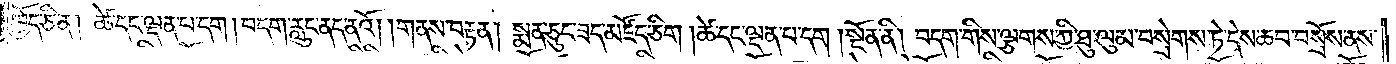ཁྱོད་ཅི་ན། ཚེ་དང་ལྡན་པ་དག །བདག་རླུང་ནད་ནའོ། །གནས་བརྟན། སྨན་ཅུང་ཟད་མཛོད་ཅིག །ཚེ་དང་ལྡན་པ་དག །སྔོན་ནི། བདག་གིས་ལྕགས་ཀྱི་ཐུ་ལུམ་བསྲེགས་ཏེ་དེས་ཆབ་བསྲོས་ནས་
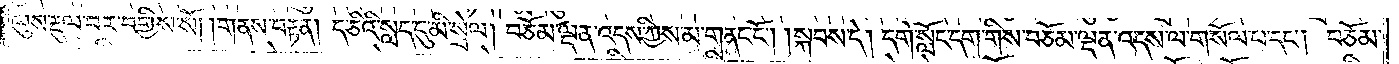ལུས་རྔུལ་བར་བགྱིས་སོ། །གནས་བརྟན། ད་ཅིའི་སླད་དུ་མི་སྲེལ། བཅོམ་ལྡན་འདས་ཀྱིས་མ་གནང་ངོ༌། །སྐབས་དེ། དགེ་སློང་དག་གིས་བཅོམ་ལྡན་འདས་ལ་གསོལ་པ་དང༌། བཅོམ་
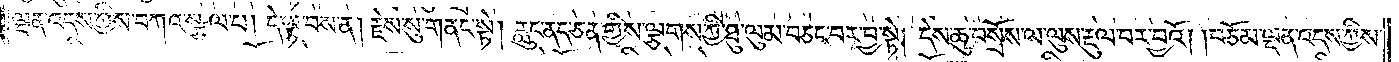ལྡན་འདས་ཀྱིས་བཀའ་སྩལ་པ། དེ་ལྟ་བས་ན། རྗེས་སུ་གནང་སྟེ། རླུང་ནད་ཅན་གྱིས་ལྕགས་ཀྱི་ཐུ་ལུམ་བཅང་བར་བྱ་སྟེ། དེས་ཆུ་བསྲོས་ལ་ལུས་རྡུལ་བར་བྱའོ། །བཅོམ་ལྡན་འདས་ཀྱིས་
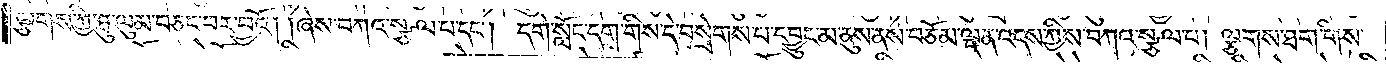ལྕགས་ཀྱི་ཐུ་ལུམ་བཅང་བར་བྱའོ། །ཞེས་བཀའ་སྩལ་པ་དང༌། དགེ་སློང་དག་གིས་དེ་བསྲེགས་པ་དབྱུང་མ་ནུས་ནས་བཅོམ་ལྡན་འདས་ཀྱིས་བཀའ་སྩལ་པ། ལྕགས་ཐག་གིས་
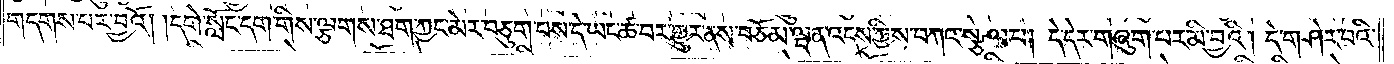གདགས་པར་བྱའོ། །དགེ་སློང་དག་གིས་ལྕགས་ཐག་ཀྱང་མེར་བཅུག་པས་དེ་ཡང་ཚ་བར་གྱུར་ནས་བཅོམ་ལྡན་འདས་ཀྱིས་བཀའ་སྩལ་པ། དེ་དེར་གཞུག་པར་མི་བྱའི། དེ་གཤེར་བའི་
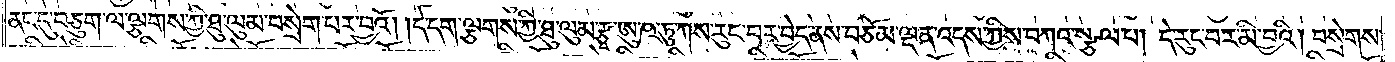ནང་དུ་བཅུག་ལ་ལྕགས་ཀྱི་ཐུ་ལུམ་བསྲེག་པར་བྱའོ། །དེ་དག་ལྕགས་ཀྱི་ཐུ་ལུམ་རྩྭ་ཨུ་ཥ་ཏུ་གས་རུང་བར་བྱེད་ནས་བཅོམ་ལྡན་འདས་ཀྱིས་བཀའ་སྩལ་པ། དེ་རུང་བར་མི་བྱའི། །བསྲེགས་
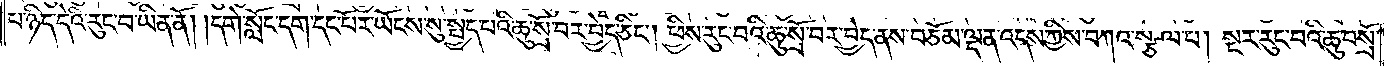པ་ཉིད་དེའི་རུང་བ་ཡིན་ནོ། །དགེ་སློང་དག་དང་པོར་ཡོངས་སུ་སྤྱད་པའི་ཆུ་སྲོ་བར་བྱེད་ཅིང༌། ཕྱིས་རུང་བའི་ཆུ་སྲོ་བར་བྱེད་ནས་བཅོམ་ལྡན་འདས་ཀྱིས་བཀའ་སྩལ་པ། སྔར་རུང་བའི་ཆུ་བསྲོ་
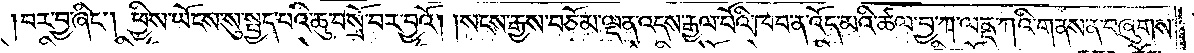བར་བྱ་ཞིང༌། ཕྱིས་ཡོངས་སུ་སྤྱད་པའི་ཆུ་བསྲོ་བར་བྱའོ། །སངས་རྒྱས་བཅོམ་ལྡན་འདས་རྒྱལ་པོའི་ཁབ་ན་འོད་མའི་ཚལ་བྱ་ཀ་ལནྡ་ཀའི་གནས་ན་བཞུགས་
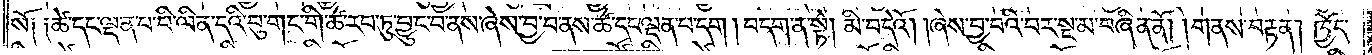སོ། །ཚེ་དང་ལྡན་པ་པི་ལིན་དའི་བུ་གང་གི་ཚེ་རབ་ཏུ་བྱུང་བ་ནས་ཞེས་བྱ་བ་ནས་ཚེ་དང་ལྡན་པ་དག །བདག་ན་སྟེ། མི་བདེའོ། །ཞེས་བྱ་བའི་བར་སྔ་མ་བཞིན་ནོ། །གནས་བརྟན། ཁྱོད་
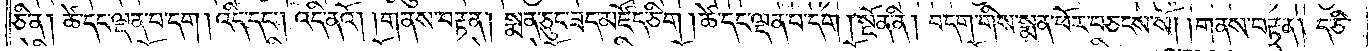ཅི་ན། ཚེ་དང་ལྡན་པ་དག །འདི་དང༌། འདི་ནའོ། །གནས་བརྟན། སྨན་ཅུང་ཟད་མཛོད་ཅིག །ཚེ་དང་ལྡན་པ་དག །སྔོན་ནི། བདག་གིས་སྨན་ཕོར་བཅངས་སོ། །གནས་བརྟན། ད་ཅི་
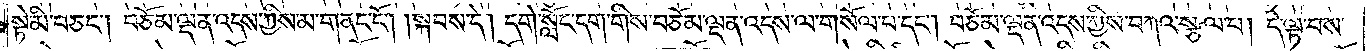སྟེ་མི་བཅང༌། བཅོམ་ལྡན་འདས་ཀྱིས་མ་གནང་ངོ༌། །སྐབས་དེ། དགེ་སློང་དག་གིས་བཅོམ་ལྡན་འདས་ལ་གསོལ་པ་དང༌། བཅོམ་ལྡན་འདས་ཀྱིས་བཀའ་སྩལ་པ། དེ་ལྟ་བས་
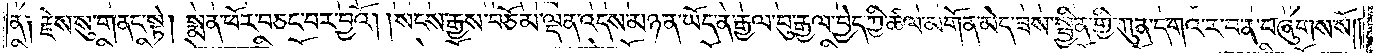ན། རྗེས་སུ་གནང་སྟེ། སྨན་ཕོར་བཅང་བར་བྱའོ། །སངས་རྒྱས་བཅོམ་ལྡན་འདས་མཉན་ཡོད་ན་རྒྱལ་བུ་རྒྱལ་བྱེད་ཀྱི་ཚལ་མགོན་མེད་ཟས་སྦྱིན་གྱི་ཀུན་དགའ་ར་བ་ན་བཞུགས་སོ། །
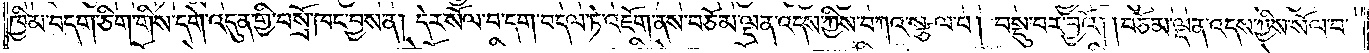ཁྱིམ་བདག་ཅིག་གིས་དགེ་འདུན་གྱི་བསྲོ་ཁང་བྱས་ན། དེར་སོལ་བ་དག་བདལ་ཏེ་འཇོག་ནས་བཅོམ་ལྡན་འདས་ཀྱིས་བཀའ་སྩལ་པ། བསྡུ་བར་བྱའོ། །བཅོམ་ལྡན་འདས་ཀྱིས་སོལ་བ་
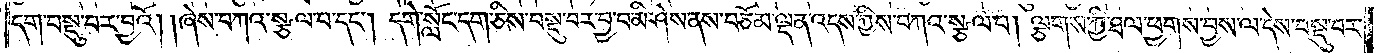དག་བསྡུ་བར་བྱའོ། །ཞེས་བཀའ་སྩལ་པ་དང༌། དགེ་སློང་དག་ཅིས་བསྡུ་བར་བྱ་བ་མི་ཤེས་ནས་བཅོམ་ལྡན་འདས་ཀྱིས་བཀའ་སྩལ་པ། ལྕགས་ཀྱི་ཐལ་ཕྱགས་བྱས་ལ་དེས་བསྡུ་བར་
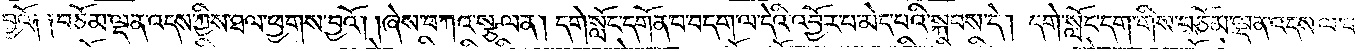བྱའོ། །བཅོམ་ལྡན་འདས་ཀྱིས་ཐལ་ཕྱགས་བྱའོ། །ཞེས་བཀའ་སྩལ་ན། དགེ་སློང་དགོན་པ་བདག་ལ་དེའི་འབྱོར་པ་མེད་པའི་སྐབས་དེ། དགེ་སློང་དག་གིས་བཅོམ་ལྡན་འདས་ལ་གསོལ་
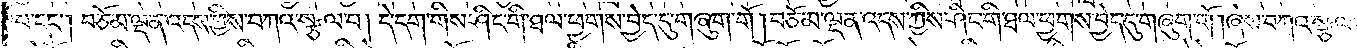པ་དང༌། བཅོམ་ལྡན་འདས་ཀྱིས་བཀའ་སྩལ་པ། དེ་དག་གིས་ཤིང་གི་ཐལ་ཕྱགས་བྱེད་དུ་གཞུག་གོ །བཅོམ་ལྡན་འདས་ཀྱིས་ཤིང་གི་ཐལ་ཕྱགས་བྱེད་དུ་གཞུག་གོ །ཞེས་བཀའ་སྩལ་
